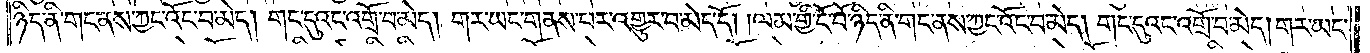ཉིད་ནི་གང་ནས་ཀྱང་འོང་བ་མེད། གང་དུའང་འགྲོ་བ་མེད། གར་ཡང་གནས་པར་འགྱུར་བ་མེད་དོ། །ལམ་གྱི་ངོ་བོ་ཉིད་ནི་གང་ནས་ཀྱང་འོང་བ་མེད། གང་དུའང་འགྲོ་བ་མེད། གར་ཡང་
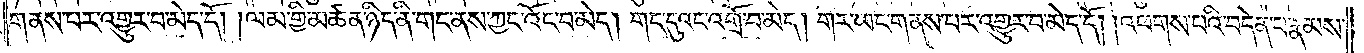གནས་པར་འགྱུར་བ་མེད་དོ། །ལམ་གྱི་མཚན་ཉིད་ནི་གང་ནས་ཀྱང་འོང་བ་མེད། གང་དུའང་འགྲོ་བ་མེད། གར་ཡང་གནས་པར་འགྱུར་བ་མེད་དོ། །འཕགས་པའི་བདེན་པ་རྣམས་
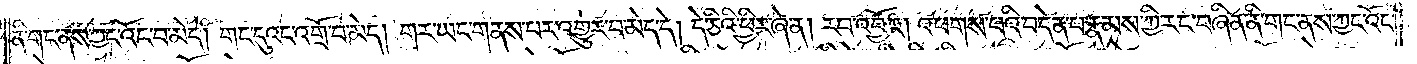ནི་གང་ནས་ཀྱང་འོང་བ་མེད། གང་དུའང་འགྲོ་བ་མེད། གར་ཡང་གནས་པར་འགྱུར་བ་མེད་དེ། དེ་ཅིའི་ཕྱིར་ཞེ་ན། རབ་འབྱོར། འཕགས་པའི་བདེན་པ་རྣམས་ཀྱི་རང་བཞིན་ནི་གང་ནས་ཀྱང་འོང་
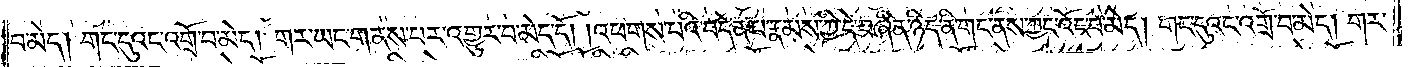བ་མེད། གང་དུའང་འགྲོ་བ་མེད། གར་ཡང་གནས་པར་འགྱུར་བ་མེད་དོ། །འཕགས་པའི་བདེན་པ་རྣམས་ཀྱི་དེ་བཞིན་ཉིད་ནི་གང་ནས་ཀྱང་འོང་བ་མེད། གང་དུའང་འགྲོ་བ་མེད། གར་
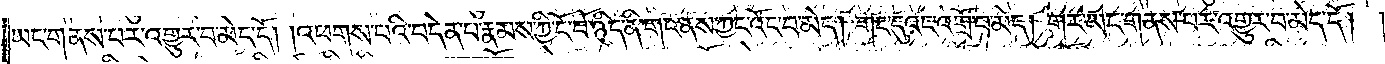ཡང་གནས་པར་འགྱུར་བ་མེད་དོ། །འཕགས་པའི་བདེན་པ་རྣམས་ཀྱི་ངོ་བོ་ཉིད་ནི་གང་ནས་ཀྱང་འོང་བ་མེད། གང་དུའང་འགྲོ་བ་མེད། གར་ཡང་གནས་པར་འགྱུར་བ་མེད་དོ། །
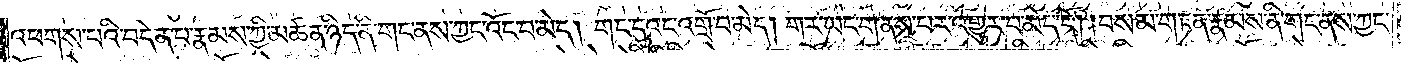འཕགས་པའི་བདེན་པ་རྣམས་ཀྱི་མཚན་ཉིད་ནི་གང་ནས་ཀྱང་འོང་བ་མེད། གང་དུའང་འགྲོ་བ་མེད། གར་ཡང་གནས་པར་འགྱུར་བ་མེད་དོ། །བསམ་གཏན་རྣམས་ནི་གང་ནས་ཀྱང་
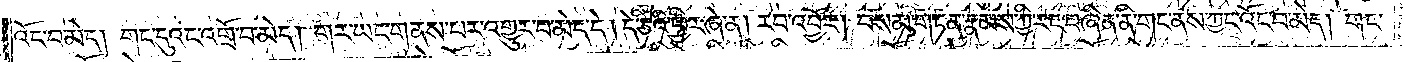འོང་བ་མེད། གང་དུའང་འགྲོ་བ་མེད། གར་ཡང་གནས་པར་འགྱུར་བ་མེད་དེ། དེ་ཅིའི་ཕྱིར་ཞེ་ན། རབ་འབྱོར། བསམ་གཏན་རྣམས་ཀྱི་རང་བཞིན་ནི་གང་ནས་ཀྱང་འོང་བ་མེད། གང་
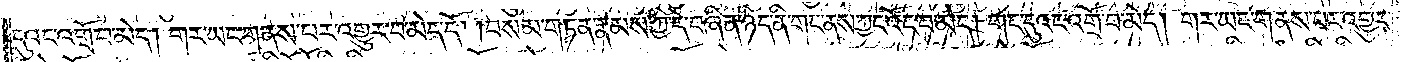དུའང་འགྲོ་བ་མེད། གར་ཡང་གནས་པར་འགྱུར་བ་མེད་དོ། །བསམ་གཏན་རྣམས་ཀྱི་དེ་བཞིན་ཉིད་ནི་གང་ནས་ཀྱང་འོང་བ་མེད། གང་དུའང་འགྲོ་བ་མེད། གར་ཡང་གནས་པར་འགྱུར་
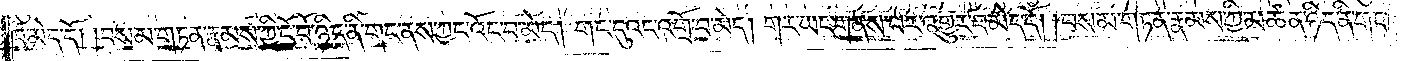བ་མེད་དོ། །བསམ་གཏན་རྣམས་ཀྱི་ངོ་བོ་ཉིད་ནི་གང་ནས་ཀྱང་འོང་བ་མེད། གང་དུའང་འགྲོ་བ་མེད། གར་ཡང་གནས་པར་འགྱུར་བ་མེད་དོ། །བསམ་གཏན་རྣམས་ཀྱི་མཚན་ཉིད་ནི་གང་
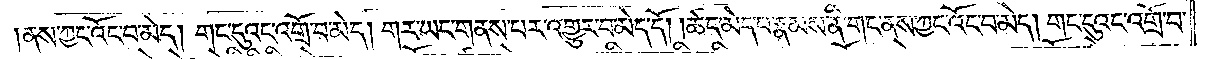ནས་ཀྱང་འོང་བ་མེད། གང་དུའང་འགྲོ་བ་མེད། གར་ཡང་གནས་པར་འགྱུར་བ་མེད་དོ། །ཚད་མེད་པ་རྣམས་ནི་གང་ནས་ཀྱང་འོང་བ་མེད། གང་དུའང་འགྲོ་བ་
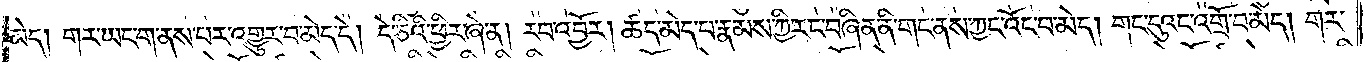མེད། གར་ཡང་གནས་པར་འགྱུར་བ་མེད་དེ། དེ་ཅིའི་ཕྱིར་ཞེ་ན། རབ་འབྱོར། ཚད་མེད་པ་རྣམས་ཀྱི་རང་བཞིན་ནི་གང་ནས་ཀྱང་འོང་བ་མེད། གང་དུའང་འགྲོ་བ་མེད། གར་
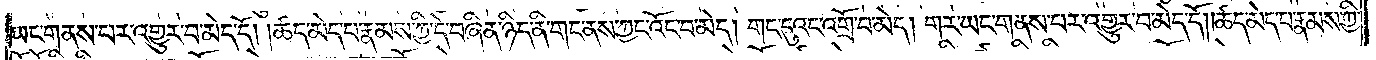ཡང་གནས་པར་འགྱུར་བ་མེད་དོ། །ཚད་མེད་པ་རྣམས་ཀྱི་དེ་བཞིན་ཉིད་ནི་གང་ནས་ཀྱང་འོང་བ་མེད། གང་དུའང་འགྲོ་བ་མེད། གར་ཡང་གནས་པར་འགྱུར་བ་མེད་དོ། །ཚད་མེད་པ་རྣམས་ཀྱི་
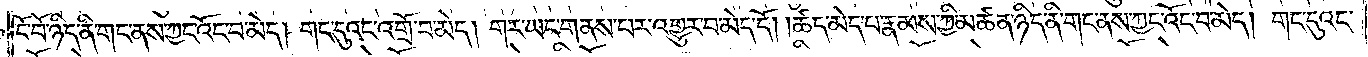ངོ་བོ་ཉིད་ནི་གང་ནས་ཀྱང་འོང་བ་མེད། གང་དུའང་འགྲོ་བ་མེད། གར་ཡང་གནས་པར་འགྱུར་བ་མེད་དོ། །ཚད་མེད་པ་རྣམས་ཀྱི་མཚན་ཉིད་ནི་གང་ནས་ཀྱང་འོང་བ་མེད། གང་དུའང་
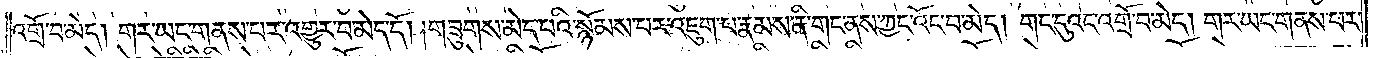འགྲོ་བ་མེད། གར་ཡང་གནས་པར་འགྱུར་བ་མེད་དོ། །གཟུགས་མེད་པའི་སྙོམས་པར་འཇུག་པ་རྣམས་ནི་གང་ནས་ཀྱང་འོང་བ་མེད། གང་དུའང་འགྲོ་བ་མེད། གར་ཡང་གནས་པར་
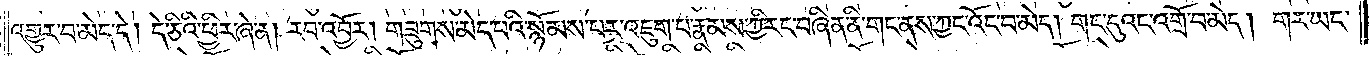འགྱུར་བ་མེད་དེ། དེ་ཅིའི་ཕྱིར་ཞེ་ན། རབ་འབྱོར། གཟུགས་མེད་པའི་སྙོམས་པར་འཇུག་པ་རྣམས་ཀྱི་རང་བཞིན་ནི་གང་ནས་ཀྱང་འོང་བ་མེད། གང་དུའང་འགྲོ་བ་མེད། གར་ཡང་
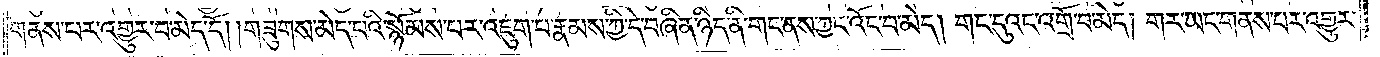གནས་པར་འགྱུར་བ་མེད་དོ། །གཟུགས་མེད་པའི་སྙོམས་པར་འཇུག་པ་རྣམས་ཀྱི་དེ་བཞིན་ཉིད་ནི་གང་ནས་ཀྱང་འོང་བ་མེད། གང་དུའང་འགྲོ་བ་མེད། གར་ཡང་གནས་པར་འགྱུར་
